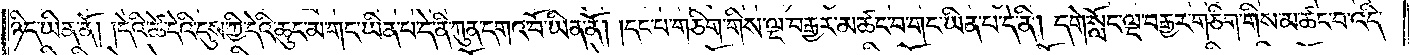ཉིད་ཡིན་ནོ། །དེའི་ཚེ་དེའི་དུས་ཀྱི་དེའི་ཆུང་མ་གང་ཡིན་པ་དེ་ནི་ཀུན་དགའ་བོ་ཡིན་ནོ། །དང་པོ་གཅིག་གིས་ལྔ་བརྒྱར་མཚང་བ་གང་ཡིན་པ་དེ་ནི། དགེ་སློང་ལྔ་བརྒྱར་གཅིག་གིས་མ་ཚང་བ་འདི་
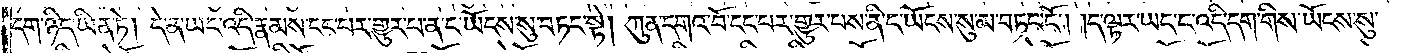དག་ཉིད་ཡིན་ཏེ། དེ་ན་ཡང་འདི་རྣམས་ངང་པར་གྱུར་པ་ན་ང་ཡོངས་སུ་བཏང་སྟེ། ཀུན་དགའ་བོ་ངང་པར་གྱུར་པས་ནི་ང་ཡོངས་སུ་མ་བཏང་ངོ༌། །ད་ལྟར་ཡང་ང་འདི་དག་གིས་ཡོངས་སུ་
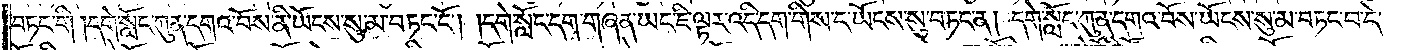བཏང་གི །དགེ་སློང་ཀུན་དགའ་བོས་ནི་ཡོངས་སུ་མ་བཏང་ངོ༌། །དགེ་སློང་དག་གཞན་ཡང་ཇི་ལྟར་འདི་དག་གིས་ང་ཡོངས་སུ་བཏང་ན། དགེ་སློང་ཀུན་དགའ་བོས་ཡོངས་སུ་མ་བཏང་བ་དེ་
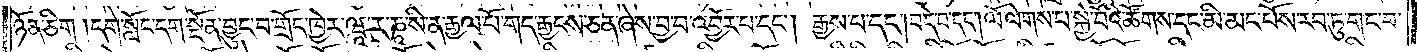ཉོན་ཅིག །དགེ་སློང་དག་སྔོན་བྱུང་བ་གྲོང་ཁྱེར་ཝཱ་ར་ཎཱ་སི་ན་རྒྱལ་པོ་གད་རྒྱངས་ཅན་ཞེས་བྱ་བ་འབྱོར་པ་དང༌། རྒྱས་པ་དང༌། བདེ་བ་དང༌། ལོ་ལེགས་པ་སྐྱེ་བོའི་ཚོགས་དང་མི་མང་པོས་རབ་ཏུ་གང་བ་
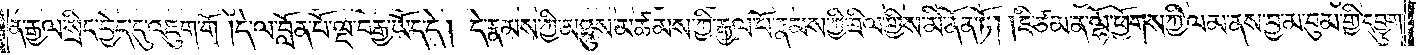ན་རྒྱལ་སྲིང་བྱེད་དུ་འཇུག་གོ །དེ་ལ་བློན་པོ་ལྔ་བརྒྱ་ཡོད་དེ། དེ་རྣམས་ཀྱི་མཐུས་མཚམས་ཀྱི་རྒྱལ་པོ་རྣམས་ཀྱི་ཟིལ་གྱིས་མི་ནོན་ཏོ། །ཇི་ཙམ་ན་ལྷོ་ཕྱོགས་ཀྱི་ལམ་ནས་བྱ་མ་བུམ་གྱི་དབྱུག་
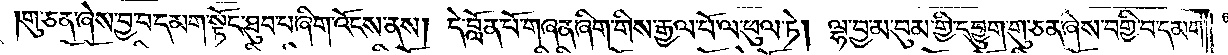།གུ་ཅན་ཞེས་བྱ་བ་དམག་སྟོང་ཐུབ་པ་ཞིག་འོངས་ནས། དེ་བློན་པོ་གཞན་ཞིག་གིས་རྒྱལ་པོ་ལ་ཕུལ་ཏེ། ལྷ་བྱ་མ་བུམ་གྱི་དབྱུག་གུ་ཅན་ཞེས་བགྱི་བ་དམག་
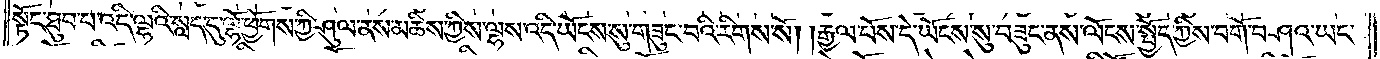སྟོང་ཐུབ་པ་འདི་ལྷའི་སླད་དུ་ལྷོ་ཕྱོགས་ཀྱི་ཤུལ་ནས་མཆིས་ཀྱིས་ལྷས་འདི་ཡོངས་སུ་གཟུང་བའི་རིགས་སོ། །རྒྱལ་པོས་དེ་ཡོངས་སུ་བཟུང་ནས་ལོངས་སྤྱོད་ཀྱིས་བགོ་བཤའ་ཡང་
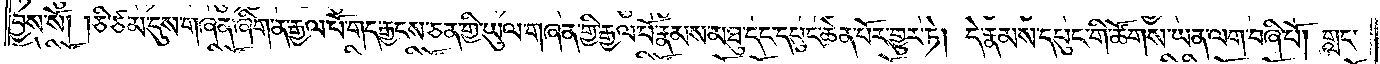བྱས་སོ། །ཅི་ཙམ་དུས་གཞན་ཞིག་ན་རྒྱལ་པོ་གད་རྒྱངས་ཅན་གྱི་ཡུལ་གཞན་གྱི་རྒྱལ་པོ་རྣམས་མཐུ་དང་དཔུང་ཆེན་པོར་གྱུར་ཏེ། དེ་རྣམས་དཔུང་གི་ཚོགས་ཡན་ལག་བཞི་པོ། གླང་
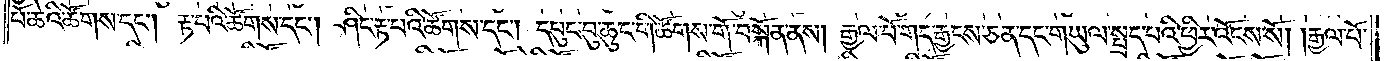པོ་ཆེའི་ཚོགས་དང༌། རྟ་པའི་ཚོགས་དང༌། ཤིང་རྟ་པའི་ཚོགས་དང༌། དཔུང་བུ་ཆུང་གི་ཚོགས་གོ་བསྐོན་ནས། རྒྱལ་པོ་གད་རྒྱངས་ཅན་དང་གཡུལ་སྤྲད་པའི་ཕྱིར་འོངས་སོ། །རྒྱལ་པོ་
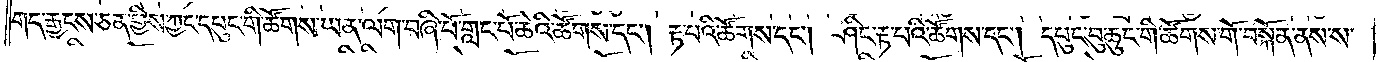གད་རྒྱངས་ཅན་གྱིས་ཀྱང་དཔུང་གི་ཚོགས་ཡན་ལག་བཞི་པོ་གླང་པོ་ཆེའི་ཚོགས་དང༌། རྟ་པའི་ཚོགས་དང༌། ཤིང་རྟ་པའི་ཚོགས་དང༌། དཔུང་བུ་ཆུང་གི་ཚོགས་གོ་བསྐོན་ནས་ས་
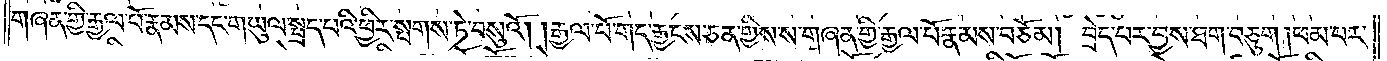གཞན་གྱི་རྒྱལ་པོ་རྣམས་དང་གཡུལ་སྤྲད་པའི་ཕྱིར་སྤགས་ཏེ་བསུའོ། །རྒྱལ་པོ་གད་རྒྱངས་ཅན་གྱིས་ས་གཞན་གྱི་རྒྱལ་པོ་རྣམས་བཅོམ། བྲེད་པར་བྱས་ཐག་བཅུག །ཕམ་པར་
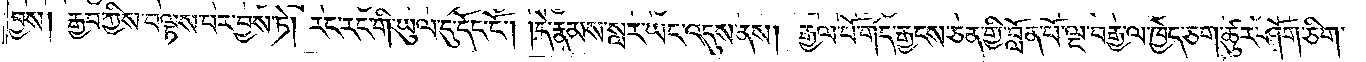བྱས། རྒྱབ་ཀྱིས་བལྟས་པར་བྱས་ཏེ། རང་རང་གི་ཡུལ་དུ་དོང་ངོ༌། །དེ་རྣམས་སླར་ཡང་འདུས་ནས། རྒྱལ་པོ་གད་རྒྱངས་ཅན་གྱི་བློན་པོ་ལྔ་བརྒྱ་ལ་ཁྱེད་ཅག་ཚུར་ཤོག་ཅིག་
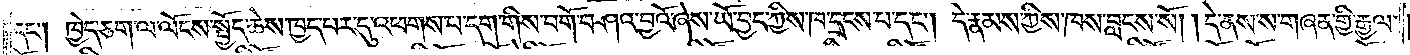དང༌། ཁྱེད་ཅག་ལ་ལོངས་སྤྱོད་ཆེས་ཁྱད་པར་དུ་འཕགས་པ་དག་གིས་བགོ་བཤའ་བྱའོ་ཞེས་ཡོ་བྱད་ཀྱིས་ཁ་དྲངས་པ་དང༌། དེ་རྣམས་ཀྱིས་ཁས་བླངས་སོ། །དེ་ནས་ས་གཞན་གྱི་རྒྱལ་
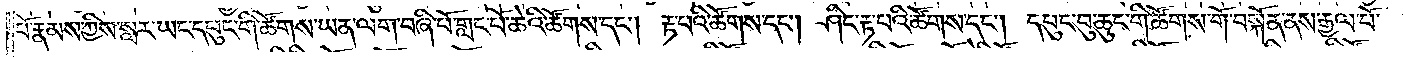པོ་རྣམས་ཀྱིས་སླར་ཡང་དཔུང་གི་ཚོགས་ཡན་ལག་བཞི་པོ་གླང་པོ་ཆེའི་ཚོགས་དང༌། རྟ་པའི་ཚོགས་དང༌། ཤིང་རྟ་པའི་ཚོགས་དང༌། དཔུང་བུ་ཆུང་གི་ཚོགས་གོ་བསྐོན་ནས་རྒྱལ་པོ་
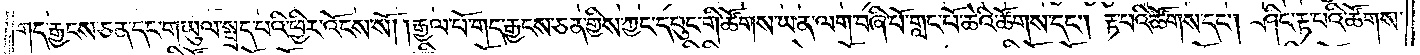གད་རྒྱངས་ཅན་དང་གཡུལ་སྤྲད་པའི་ཕྱིར་འོངས་སོ། །རྒྱལ་པོ་གད་རྒྱངས་ཅན་གྱིས་ཀྱང་དཔུང་གི་ཚོགས་ཡན་ལག་བཞི་པོ་གླང་པོ་ཆེའི་ཚོགས་དང༌། རྟ་པའི་ཚོགས་དང༌། ཤིང་རྟ་པའི་ཚོགས་
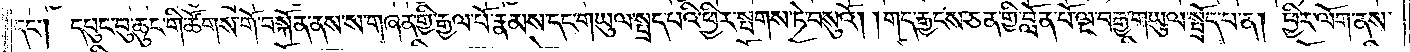དང༌། དཔུང་བུ་ཆུང་གི་ཚོགས་གོ་བསྐོན་ནས་ས་གཞན་གྱི་རྒྱལ་པོ་རྣམས་དང་གཡུལ་སྤྲད་པའི་ཕྱིར་སྤགས་ཏེ་བསུའོ། །གད་རྒྱངས་ཅན་གྱི་བློན་པོ་ལྔ་བརྒྱ་གཡུལ་སྤྲོད་པ་ན། ཕྱིར་ལོག་ནས་
